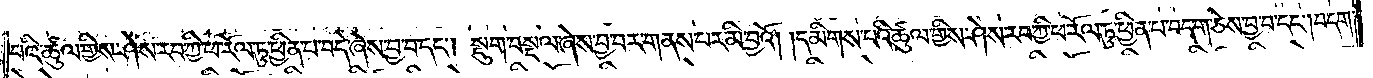པའི་ཚུལ་གྱིས་ཤེས་རབ་ཀྱི་ཕ་རོལ་ཏུ་ཕྱིན་པ་བདེ་ཞེས་བྱ་བ་དང༌། སྡུག་བསྔལ་ཞེས་བྱ་བར་གནས་པར་མི་བྱའོ། །དམིགས་པའི་ཚུལ་གྱིས་ཤེས་རབ་ཀྱི་ཕ་རོལ་ཏུ་ཕྱིན་པ་བདག་ཅེས་བྱ་བ་དང༌། བདག་
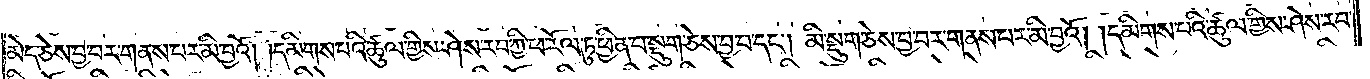མེད་ཅེས་བྱ་བར་གནས་པར་མི་བྱའོ། །དམིགས་པའི་ཚུལ་གྱིས་ཤེས་རབ་ཀྱི་ཕ་རོལ་ཏུ་ཕྱིན་པ་སྡུག་ཅེས་བྱ་བ་དང༌། མི་སྡུག་ཅེས་བྱ་བར་གནས་པར་མི་བྱའོ། །དམིགས་པའི་ཚུལ་གྱིས་ཤེས་རབ་
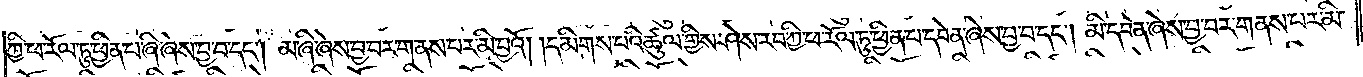ཀྱི་ཕ་རོལ་ཏུ་ཕྱིན་པ་ཞི་ཞེས་བྱ་བ་དང༌། མ་ཞི་ཞེས་བྱ་བར་གནས་པར་མི་བྱའོ། །དམིགས་པའི་ཚུལ་གྱིས་ཤེས་རབ་ཀྱི་ཕ་རོལ་ཏུ་ཕྱིན་པ་དབེན་ཞེས་བྱ་བ་དང༌། མི་དབེན་ཞེས་བྱ་བར་གནས་པར་མི་
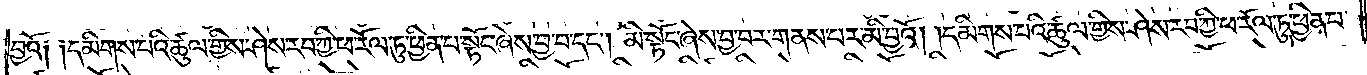བྱའོ། །དམིགས་པའི་ཚུལ་གྱིས། ཤེས་རབ་ཀྱི་ཕ་རོལ་ཏུ་ཕྱིན་པ་སྟོང་ཞེས་བྱ་བ་དང༌། མི་སྟོང་ཞེས་བྱ་བར་གནས་པར་མི་བྱའོ། །དམིགས་པའི་ཚུལ་གྱིས་ཤེས་རབ་ཀྱི་ཕ་རོལ་ཏུ་ཕྱིན་པ་
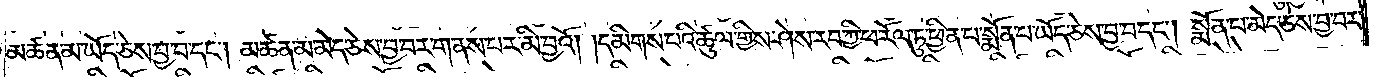མཚན་མ་ཡོད་ཅེས་བྱ་བ་དང༌། མཚན་མ་མེད་ཅེས་བྱ་བར་གནས་པར་མི་བྱའོ། །དམིགས་པའི་ཚུལ་གྱིས་ཤེས་རབ་ཀྱི་ཕ་རོལ་ཏུ་ཕྱིན་པ་སྨོན་པ་ཡོད་ཅེས་བྱ་བ་དང༌། སྨོན་པ་མེད་ཅེས་བྱ་བར་
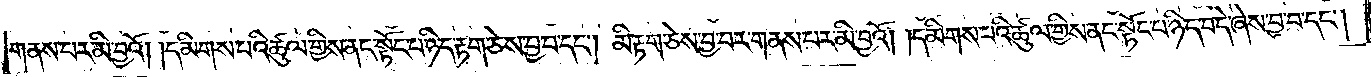གནས་པར་མི་བྱའོ། །དམིགས་པའི་ཚུལ་གྱིས་ནང་སྟོང་པ་ཉིད་རྟག་ཅེས་བྱ་བ་དང༌། མི་རྟག་ཅེས་བྱ་བར་གནས་པར་མི་བྱའོ། །དམིགས་པའི་ཚུལ་གྱིས་ནང་སྟོང་པ་ཉིད་བདེ་ཞེས་བྱ་བ་དང༌།
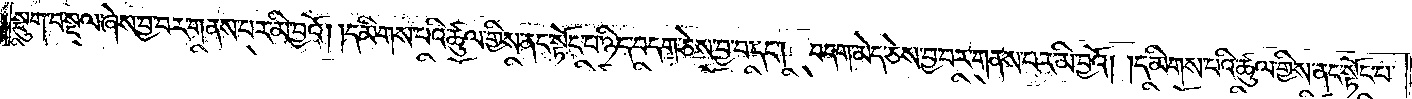སྡུག་བསྔལ་ཞེས་བྱ་བར་གནས་པར་མི་བྱའོ། །དམིགས་པའི་ཚུལ་གྱིས་ནང་སྟོང་པ་ཉིད་བདག་ཅེས་བྱ་བ་དང༌། བདག་མེད་ཅེས་བྱ་བར་གནས་པར་མི་བྱའོ། །དམིགས་པའི་ཚུལ་གྱིས་ནང་སྟོང་པ་
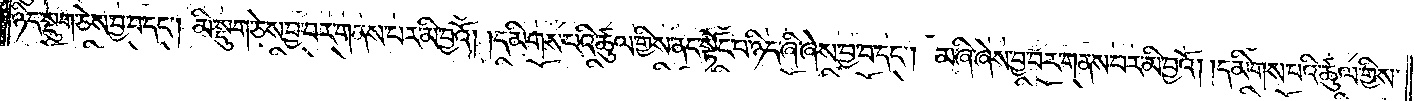ཉིད་སྡུག་ཅེས་བྱ་བ་དང༌། མི་སྡུག་ཅེས་བྱ་བར་གནས་པར་མི་བྱའོ། །དམིགས་པའི་ཚུལ་གྱིས་ནང་སྟོང་པ་ཉིད་ཞི་ཞེས་བྱ་བ་དང༌། མ་ཞི་ཞེས་བྱ་བར་གནས་པར་མི་བྱའོ། །དམིགས་པའི་ཚུལ་གྱིས་
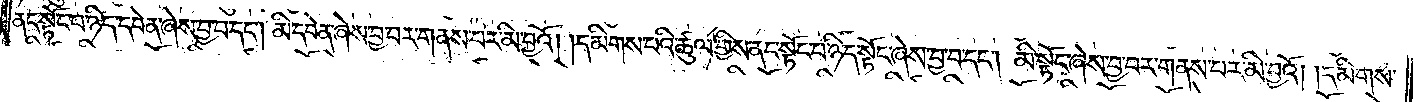ནང་སྟོང་པ་ཉིད་དབེན་ཞེས་བྱ་བ་དང༌། མི་དབེན་ཞེས་བྱ་བར་གནས་པར་མི་བྱའོ། །དམིགས་པའི་ཚུལ་གྱིས་ནང་སྟོང་པ་ཉིད་སྟོང་ཞེས་བྱ་བ་དང༌། མི་སྟོང་ཞེས་བྱ་བར་གནས་པར་མི་བྱའོ། །དམིགས་
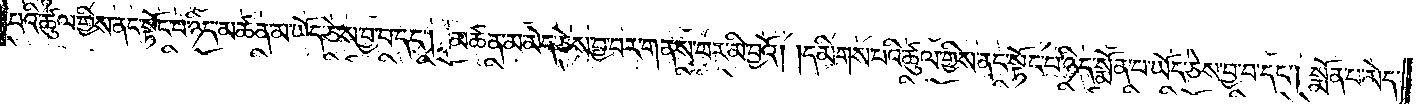པའི་ཚུལ་གྱིས་ནང་སྟོང་པ་ཉིད་མཚན་མ་ཡོད་ཅེས་བྱ་བ་དང༌། མཚན་མ་མེད་ཅེས་བྱ་བར་གནས་པར་མི་བྱའོ། །དམིགས་པའི་ཚུལ་གྱིས་ནང་སྟོང་པ་ཉིད་སྨོན་པ་ཡོད་ཅེས་བྱ་བ་དང༌། སྨོན་པ་མེད་
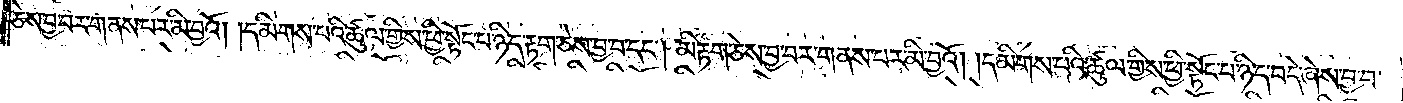ཅེས་བྱ་བར་གནས་པར་མི་བྱའོ། །དམིགས་པའི་ཚུལ་གྱིས། ཕྱི་སྟོང་པ་ཉིད་རྟག་ཅེས་བྱ་བ་དང༌། མི་རྟག་ཅེས་བྱ་བར་གནས་པར་མི་བྱའོ། །དམིགས་པའི་ཚུལ་གྱིས་ཕྱི་སྟོང་པ་ཉིད་བདེ་ཞེས་བྱ་བ་
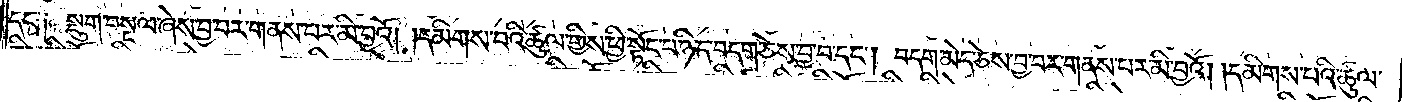དང༌༏ སྡུག་བསྔལ་ཞེས་བྱ་བར་གནས་པར་མི་བྱའོ། །དམིགས་པའི་ཚུལ་གྱིས་ཕྱི་སྟོང་པ་ཉིད་བདག་ཅེས་བྱ་བ་དང༌། བདག་མེད་ཅེས་བྱ་བར་གནས་པར་མི་བྱའོ། །དམིགས་པའི་ཚུལ་
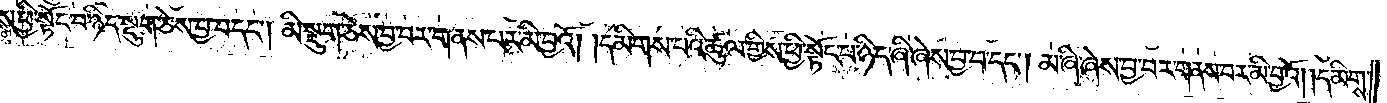གྱིས་ཕྱི་སྟོང་པ་ཉིད་སྡུག་ཅེས་བྱ་བ་དང༌། མི་སྡུག་ཅེས་བྱ་བར་གནས་པར་མི་བྱའོ། །དམིགས་པའི་ཚུལ་གྱིས་ཕྱི་སྟོང་པ་ཉིད་ཞི་ཞེས་བྱ་བ་དང༌། མ་ཞི་ཞེས་བྱ་བར་གནས་པར་མི་བྱའོ། །དམིགས་
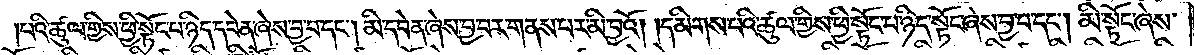པའི་ཚུལ་གྱིས་ཕྱི་སྟོང་པ་ཉིད་དབེན་ཞེས་བྱ་བ་དང༌། མི་དབེན་ཞེས་བྱ་བར་གནས་པར་མི་བྱའོ། །དམིགས་པའི་ཚུལ་གྱིས་ཕྱི་སྟོང་པ་ཉིད་སྟོང་ཞེས་བྱ་བ་དང༌། མི་སྟོང་ཞེས་
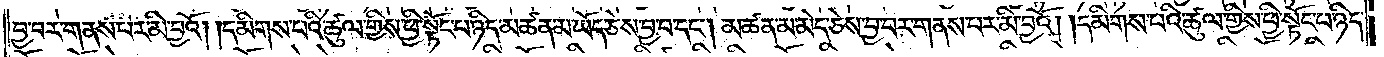བྱ་བར་གནས་པར་མི་བྱའོ། །དམིགས་པའི་ཚུལ་གྱིས་ཕྱི་སྟོང་པ་ཉིད་མཚན་མ་ཡོད་ཅེས་བྱ་བ་དང༌། མཚན་མ་མེད་ཅེས་བྱ་བར་གནས་པར་མི་བྱའོ། །དམིགས་པའི་ཚུལ་གྱིས་ཕྱི་སྟོང་པ་ཉིད་
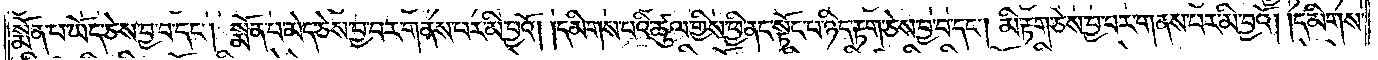སྨོན་པ་ཡོད་ཅེས་བྱ་བ་དང༌། སྨོན་པ་མེད་ཅེས་བྱ་བར་གནས་པར་མི་བྱའོ། །དམིགས་པའི་ཚུལ་གྱིས་ཕྱི་ནང་སྟོང་པ་ཉིད་རྟག་ཅེས་བྱ་བ་དང༌། མི་རྟག་ཅེས་བྱ་བར་གནས་པར་མི་བྱའོ། །དམིགས་
